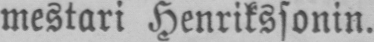mestari Henrikssonin.
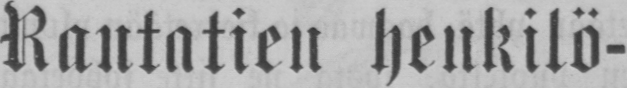Rantatien henkilö-
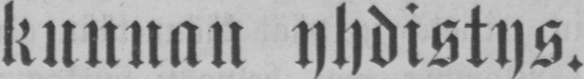kunnan yhdistys.
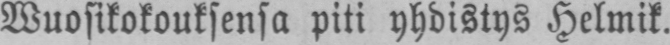Wuosikokouksensa piti yhdistys Helmik.
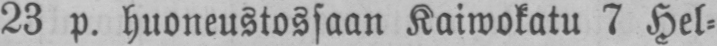23 p. huoneustossaan Kaiwokatu 7 Hel-
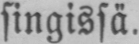singissä.
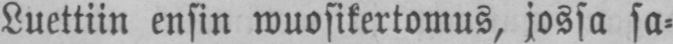Luettiin ensin wuosikertomus, jossa sa-
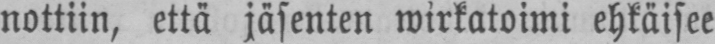nottiin, että jäsenten wirkatoimi ehkäisee
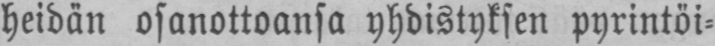heidän osanottoansa yhdistyksen pyrintöi-
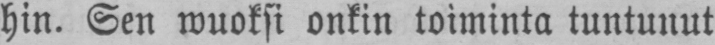hin. Sen wuoksi onkin toiminta tuntunut
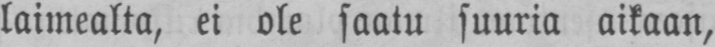laimealta, ei ole saatu suuria aikaan,
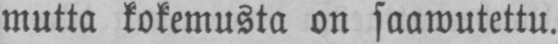mutta kokemusta on saawutettu.
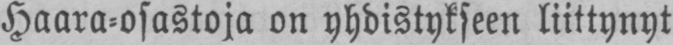Haara-osastoja on yhdistykseen liittynyt
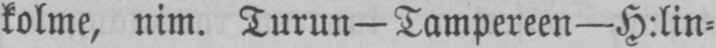kolme, nim. Turun—Tampereen—H:lin-
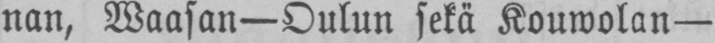nan, Waasan—Oulun sekä Kouwolan—
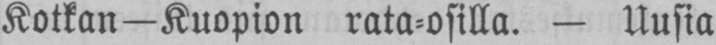Kotkan—Kuopion rata-osilla. — Uusia
